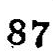87
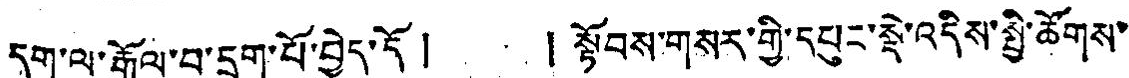དག་ལ་རྒོལ་བ་དྲག་པོ་བྱེད་དོ། །སྟོབས་གསར་གྱི་དཔུང་སྡེ་འདིས་སྤྱི་ཚོགས་
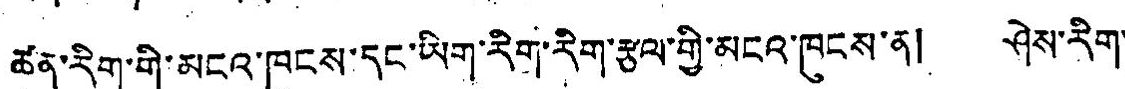ཚན་རིག་གི་མངའ་ཁུངས་དང་ཡིག་རིག་རིག་རྩལ་གྱི་མངའ་ཁུངས་ན། ཤེས་རིག་
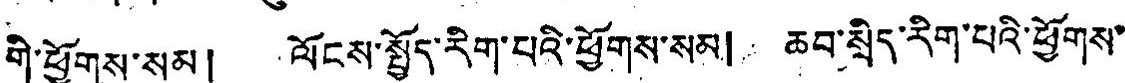གི་ཕྱོགས་སམ། ལོངས་སྤྱོད་རིག་པའི་ཕྱོགས་སམ། ཆབ་སྲིད་རིག་པའི་ཕྱོགས་
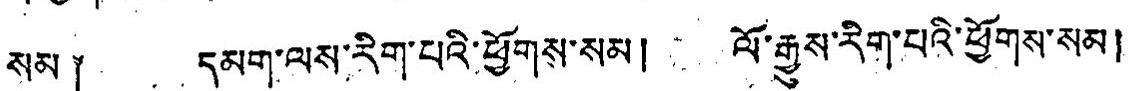སམ༐ དམག་ལས་རིག་པའི་ཕྱོགས་སམ། ལོ་རྒྱུས་རིག་པའི་ཕྱོགས་སམ།
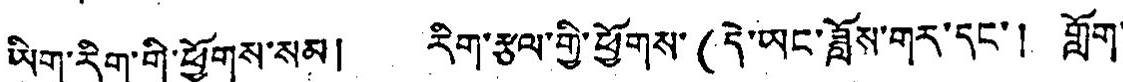ཡིག་རིག་གི་ཕྱོགས་སམ། རིག་རྩལ་གྱི་ཕྱོགས་(དེ་ཡང་ཟློས་གར་དང་། གློག་
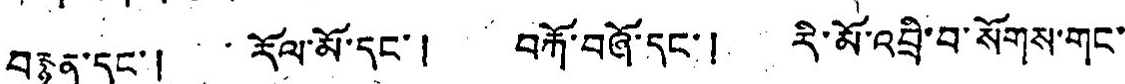བརྙན་དང་། རོལ་མོ་དང་། བརྐོ་བཞོ་དང་། རི་མོ་འབྲི་བ་སོགས་གང་
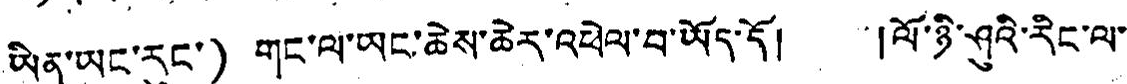ཡིན་ཡང་རང་) གང་ལ་ཡང་ཆེས་ཆེར་འཕེལ་བ་ཡོད་དོ། །ལོ་ཉི་ཤུའི་རིང་ལ་
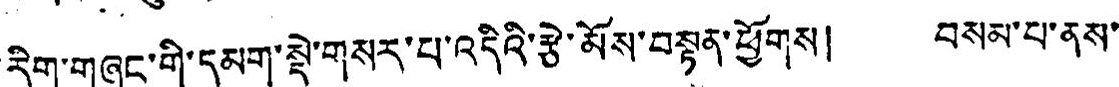རིག་གཞུང་གི་དམག་སྟེ་གསར་པ་འདིའི་རྩེ་མོས་བསྟན་ཕྱོགས། བསམ་པ་ནས་
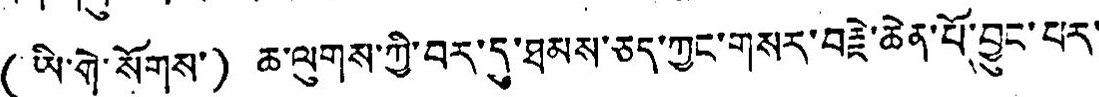(ཡི་གེ་སོགས་) ཆ་ལུགས་ཀྱི་བར་དུ་ཐམས་ཅད་ཀྱང་གསར་བརྗེ་ཆེན་པོ་བྱུང་པར་
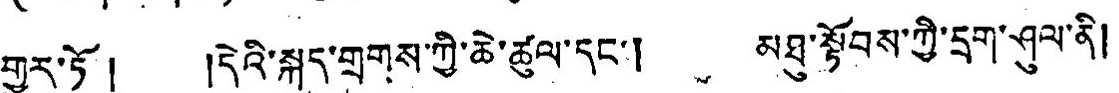གྱུར་ཏོ། །དེའི་སྐད་གྲགས་ཀྱི་ཆེ་ཚུལ་དང་། མཐུ་སྟོབས་ཀྱི་དྲུག་ཤུལ་ནི།
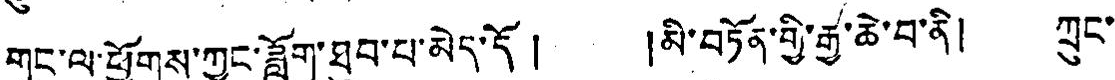གང་ལ་ཕྱོགས་ཀྱང་ཟློག་ཐུབ་པ་མེད་དོ ། །མི་བཏོན་གྱི་རྒྱ་ཆེ་བ་ནི། ཀྲུང་
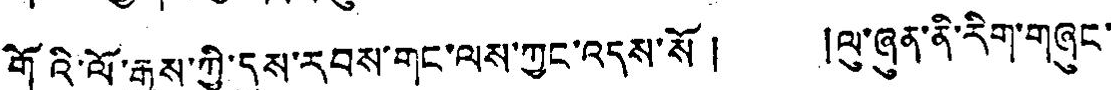གོའི་ལོ་རྒྱུས་ཀྱི་དུས་རབས་གང་ལས་ཀྱང་འདུས་སོ ། །ལུ་ཞུན་ནི་རིག་གཞུང་
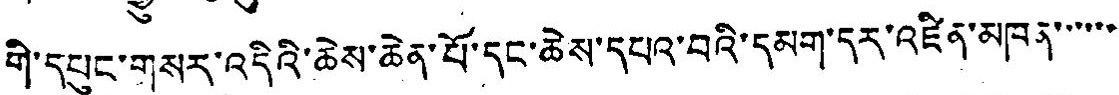གི་དཔུང་གསར་འདིའི་ཆེས་ཆེན་པོ་དང་ཆེས་དཔའ་བའི་དམག་དར་འཛིན་མཁན་་་་་་
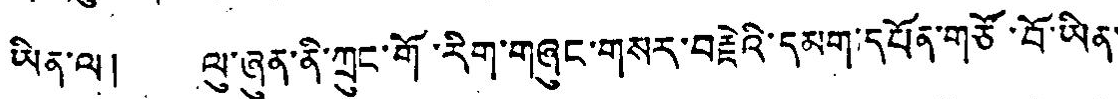ཡིན་ལ། ལུ་ཞུན་ནི་ཀྲུང་གོ་རིག་གཞུང་གསར་བརྗེའི་དམག་དཔོན་གཙོ་བོ་ཡིན་
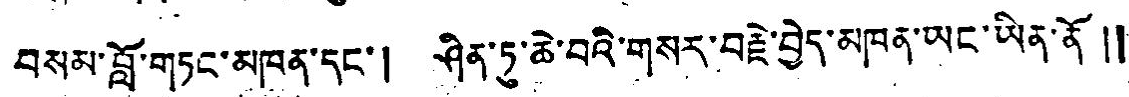བསམ་བློ་གཏང་མཁན་དང་། ཤིན་ཏུ་ཆེ་བའི་གསར་བརྗེ་བྱེད་མཁན་ཡང་ཡིན་ནོ །།
